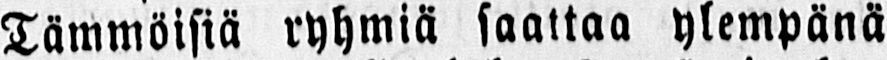Tämmöisiä ryhmiä saattaa ylempänä
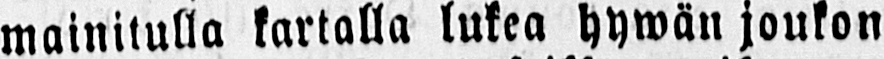mainitulla kartalla lukea hywän joukon
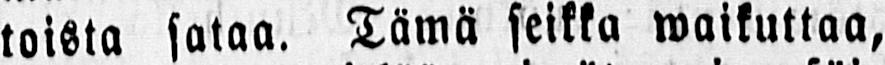toista sataa. Tämä seikka waikuttaa,
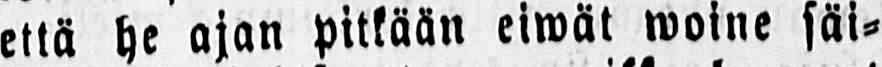että he ajan pitkään eiwät woine säi-
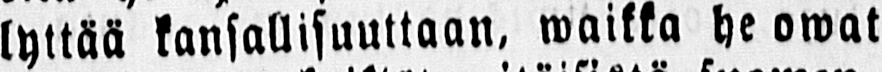lyttää kansallisuuttaan, waikka he owat
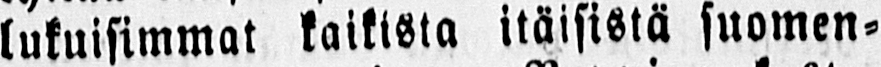lukuisimmat kaikista itäisistä suomen-
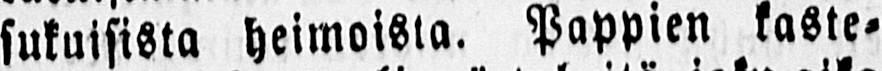sukuisista heimoista. Pappien kaste-
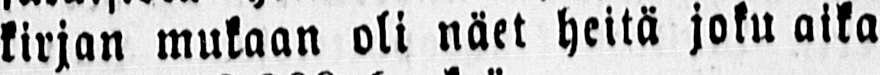kirjan mukaan oli näet heitä joku aika
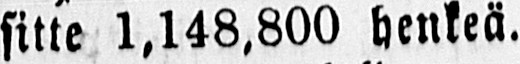sitte 1,148,800 henkeä.
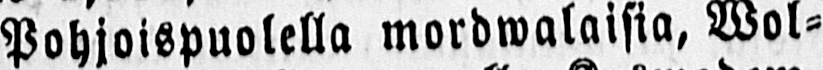Pohjoispuolella mordwalaisia, Wol-
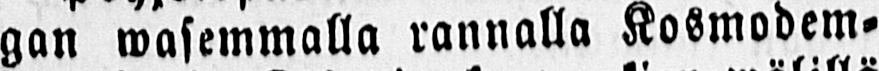gan wasemmalla rannalla Kosmodem-
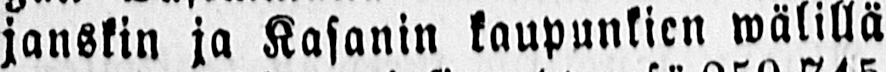janskin ja Kasanin kaupunkien wälillä
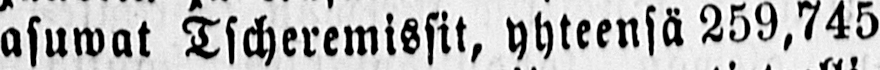asuwat Tscheremissit, yhteensä 259,745
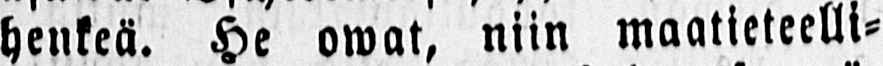henkeä. He owat, niin maatieteelli-
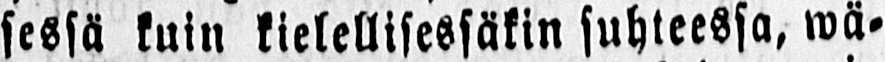sessä kuin kielellisessäkin suhteessa, wä-
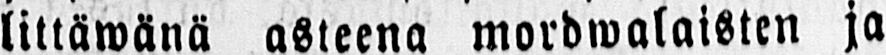littäwänä asteena mordwalaisten ja
